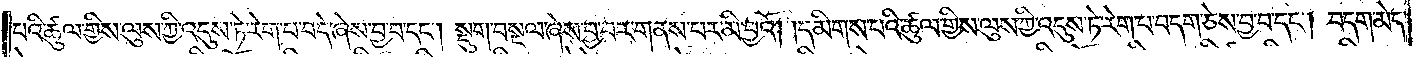པའི་ཚུལ་གྱིས་ལུས་ཀྱི་འདུས་ཏེ་རེག་པ་བདེ་ཞེས་བྱ་བ་དང༌། སྡུག་བསྔལ་ཞེས་བྱ་བར་གནས་པར་མི་བྱའོ། །དམིགས་པའི་ཚུལ་གྱིས་ལུས་ཀྱི་འདུས་ཏེ་རེག་པ་བདག་ཅེས་བྱ་བ་དང༌། བདག་མེད་
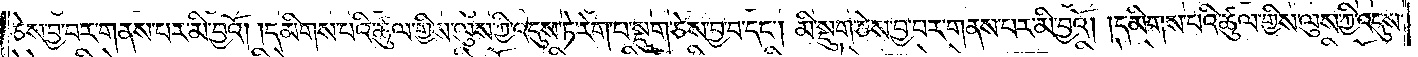ཅེས་བྱ་བར་གནས་པར་མི་བྱའོ། །དམིགས་པའི་ཚུལ་གྱིས་ལུས་ཀྱི་འདུས་ཏེ་རེག་པ་སྡུག་ཅེས་བྱ་བ་དང༌། མི་སྡུག་ཅེས་བྱ་བར་གནས་པར་མི་བྱའོ། །དམིགས་པའི་ཚུལ་གྱིས་ལུས་ཀྱི་འདུས་
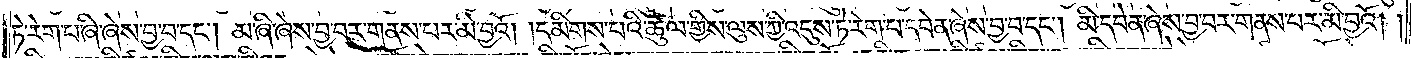ཏེ་རེག་པ་ཞི་ཞེས་བྱ་བ་དང༌། མ་ཞི་ཞེས་བྱ་བར་གནས་པར་མི་བྱའོ། །དམིགས་པའི་ཚུལ་གྱིས་ལུས་ཀྱི་འདུས་ཏེ་རེག་པ་དབེན་ཞེས་བྱ་བ་དང༌། མི་དབེན་ཞེས་བྱ་བར་གནས་པར་མི་བྱའོ། །
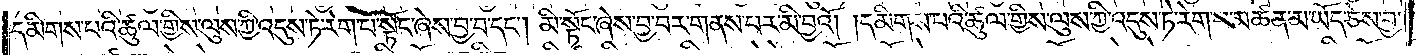དམིགས་པའི་ཚུལ་གྱིས་ལུས་ཀྱི་འདུས་ཏེ་རེག་པ་སྟོང་ཞེས་བྱ་བ་དང༌། མི་སྟོང་ཞེས་བྱ་བར་གནས་པར་མི་བྱའོ། །དམིགས་པའི་ཚུལ་གྱིས་ལུས་ཀྱི་འདུས་ཏེ་རེག་པ་མཚན་མ་ཡོད་ཅེས་བྱ་
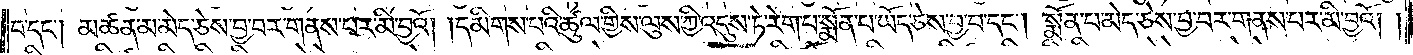བ་དང༌། མཚན་མ་མེད་ཅེས་བྱ་བར་གནས་པར་མི་བྱའོ། །དམིགས་པའི་ཚུལ་གྱིས་ལུས་ཀྱི་འདུས་ཏེ་རེག་པ་སྨོན་པ་ཡོད་ཅེས་བྱ་བ་དང༌། སྨོན་པ་མེད་ཅེས་བྱ་བར་གནས་པར་མི་བྱའོ། །
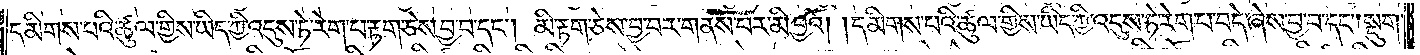དམིགས་པའི་ཚུལ་གྱིས་ཡིད་ཀྱི་འདུས་ཏེ་རེག་པ་རྟག་ཅེས་བྱ་བ་དང༌། མི་རྟག་ཅེས་བྱ་བར་གནས་པར་མི་བྱའོ། །དམིགས་པའི་ཚུལ་གྱིས་ཡིད་ཀྱི་འདུས་ཏེ་རེག་པ་བདེ་ཞེས་བྱ་བ་དང༌། སྡུག་
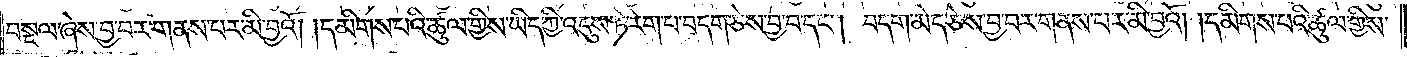བསྔལ་ཞེས་བྱ་བར་གནས་པར་མི་བྱའོ། །དམིགས་པའི་ཚུལ་གྱིས་ཡིད་ཀྱི་འདུས་ཏེ་རེག་པ་བདག་ཅེས་བྱ་བ་དང༌། བདག་མེད་ཅེས་བྱ་བར་གནས་པར་མི་བྱའོ། །དམིགས་པའི་ཚུལ་གྱིས་
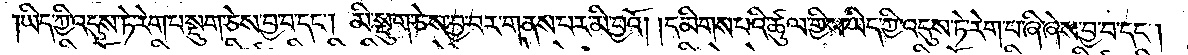ཡིད་ཀྱི་འདུས་ཏེ་རེག་པ་སྡུག་ཅེས་བྱ་བ་དང༌། མི་སྡུག་ཅེས་བྱ་བར་གནས་པར་མི་བྱའོ། །དམིགས་པའི་ཚུལ་གྱིས་ཡིད་ཀྱི་འདུས་ཏེ་རེག་པ་ཞི་ཞེས་བྱ་བ་དང༌།
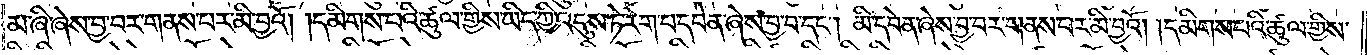མ་ཞི་ཞེས་བྱ་བར་གནས་པར་མི་བྱའོ། །དམིགས་པའི་ཚུལ་གྱིས་ཡིད་ཀྱི་འདུས་ཏེ་རེག་པ་དབེན་ཞེས་བྱ་བ་དང༌། མི་དབེན་ཞེས་བྱ་བར་གནས་པར་མི་བྱའོ། །དམིགས་པའི་ཚུལ་གྱིས་
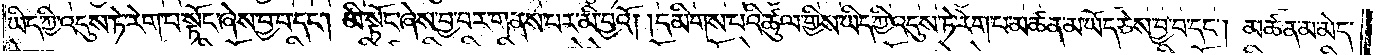ཡིད་ཀྱི་འདུས་ཏེ་རེག་པ་སྟོང་ཞེས་བྱ་བ་དང༌། མི་སྟོང་ཞེས་བྱ་བར་གནས་པར་མི་བྱའོ། །དམིགས་པའི་ཚུལ་གྱིས་ཡིད་ཀྱི་འདུས་ཏེ་རེག་པ་མཚན་མ་ཡོད་ཅེས་བྱ་བ་དང༌། མཚན་མ་མེད་
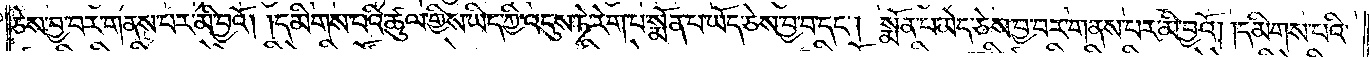ཅེས་བྱ་བར་གནས་པར་མི་བྱའོ། །དམིགས་པའི་ཚུལ་གྱིས་ཡིད་ཀྱི་འདུས་ཏེ་རེག་པ་སྨོན་པ་ཡོད་ཅེས་བྱ་བ་དང༌། སྨོན་པ་མེད་ཅེས་བྱ་བར་གནས་པར་མི་བྱའོ། །དམིགས་པའི་
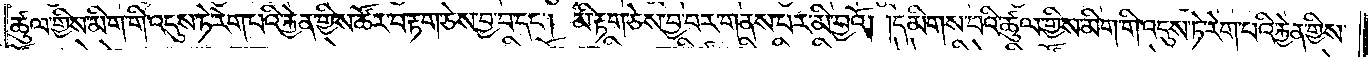ཚུལ་གྱིས་མིག་གི་འདུས་ཏེ་རེག་པའི་རྐྱེན་གྱིས་ཚོར་བ་རྟག་ཅེས་བྱ་བ་དང༌། མི་རྟག་ཅེས་བྱ་བར་གནས་པར་མི་བྱའོ། །དམིགས་པའི་ཚུལ་གྱིས་མིག་གི་འདུས་ཏེ་རེག་པའི་རྐྱེན་གྱིས་
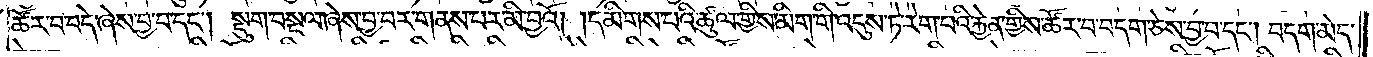ཚོར་བ་བདེ་ཞེས་བྱ་བ་དང༌། སྡུག་བསྔལ་ཞེས་བྱ་བར་གནས་པར་མི་བྱའོ། །དམིགས་པའི་ཚུལ་གྱིས་མིག་གི་འདུས་ཏེ་རེག་པའི་རྐྱེན་གྱིས་ཚོར་བ་བདག་ཅེས་བྱ་བ་དང༌། བདག་མེད་
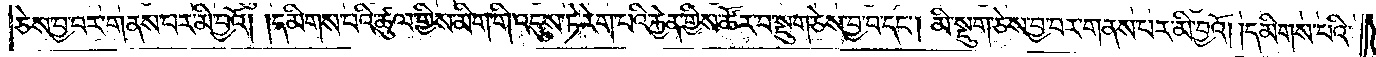ཅེས་བྱ་བར་གནས་པར་མི་བྱའོ། །དམིགས་པའི་ཚུལ་གྱིས་མིག་གི་འདུས་ཏེ་རེག་པའི་རྐྱེན་གྱིས་ཚོར་བ་སྡུག་ཅེས་བྱ་བ་དང༌། མི་སྡུག་ཅེས་བྱ་བར་གནས་པར་མི་བྱའོ། །དམིགས་པའི་
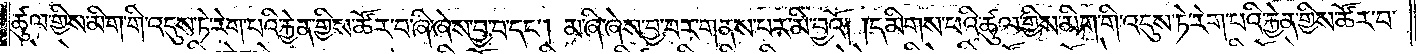ཚུལ་གྱིས་མིག་གི་འདུས་ཏེ་རེག་པའི་རྐྱེན་གྱིས་ཚོར་བ་ཞི་ཞེས་བྱ་བ་དང༌། མ་ཞི་ཞེས་བྱ་བར་གནས་པར་མི་བྱའོ། །དམིགས་པའི་ཚུལ་གྱིས་མིག་གི་འདུས་ཏེ་རེག་པའི་རྐྱེན་གྱིས་ཚོར་བ་
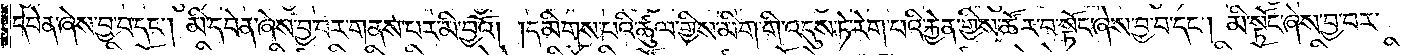དབེན་ཞེས་བྱ་བ་དང༌། མི་དབེན་ཞེས་བྱ་བར་གནས་པར་མི་བྱའོ། །དམིགས་པའི་ཚུལ་གྱིས་མིག་གི་འདུས་ཏེ་རེག་པའི་རྐྱེན་གྱིས་ཚོར་བ་སྟོང་ཞེས་བྱ་བ་དང༌། མི་སྟོང་ཞེས་བྱ་བར་
